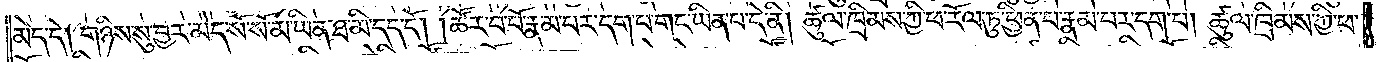མེད་དེ། གཉིས་སུ་བྱར་མེད་སོ་སོ་མ་ཡིན་ཐ་མི་དད་དོ། །ཚོར་བ་པོ་རྣམ་པར་དག་པ་གང་ཡིན་པ་དེ་ནི། ཚུལ་ཁྲིམས་ཀྱི་ཕ་རོལ་ཏུ་ཕྱིན་པ་རྣམ་པར་དག་པ། ཚུལ་ཁྲིམས་ཀྱི་ཕ་
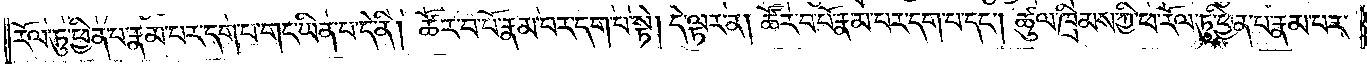རོལ་ཏུ་ཕྱིན་པ་རྣམ་པར་དག་པ་གང་ཡིན་པ་དེ་ནི། ཚོར་བ་པོ་རྣམ་པར་དག་པ་སྟེ། དེ་ལྟར་ན། ཚོར་བ་པོ་རྣམ་པར་དག་པ་དང༌། ཚུལ་ཁྲིམས་ཀྱི་ཕ་རོལ་ཏུ་ཕྱིན་པ་རྣམ་པར་
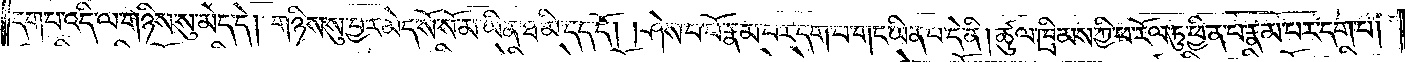དག་པ་འདི་ལ་གཉིས་སུ་མེད་དེ། གཉིས་སུ་བྱར་མེད་སོ་སོ་མ་ཡིན་ཐ་མི་དད་དོ། །ཤེས་པ་པོ་རྣམ་པར་དག་པ་གང་ཡིན་པ་དེ་ནི། ཚུལ་ཁྲིམས་ཀྱི་ཕ་རོལ་ཏུ་ཕྱིན་པ་རྣམ་པར་དག་པ།
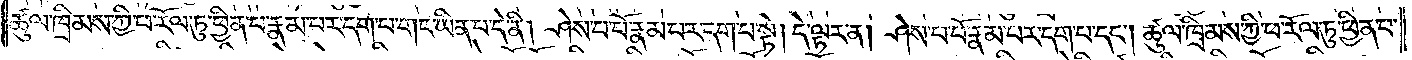ཚུལ་ཁྲིམས་ཀྱི་ཕ་རོལ་ཏུ་ཕྱིན་པ་རྣམ་པར་དག་པ་གང་ཡིན་པ་དེ་ནི། ཤེས་པ་པོ་རྣམ་པར་དག་པ་སྟེ། དེ་ལྟར་ན། ཤེས་པ་པོ་རྣམ་པར་དག་པ་དང༌། ཚུལ་ཁྲིམས་ཀྱི་ཕ་རོལ་ཏུ་ཕྱིན་པ་
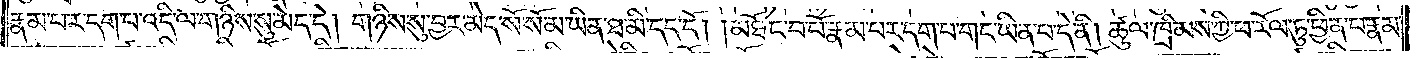རྣམ་པར་དག་པ་འདི་ལ་གཉིས་སུ་མེད་དེ། གཉིས་སུ་བྱར་མེད་སོ་སོ་མ་ཡིན་ཐ་མི་དད་དོ། །མཐོང་བ་བོ་རྣམ་པར་དག་པ་གང་ཡིན་པ་དེ་ནི། ཚུལ་ཁྲིམས་ཀྱི་ཕ་རོལ་ཏུ་ཕྱིན་པ་རྣམ་
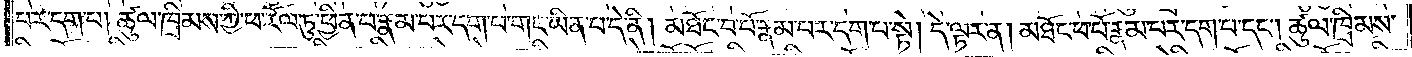པར་དག་པ། ཚུལ་ཁྲིམས་ཀྱི་ཕ་རོལ་ཏུ་ཕྱིན་པ་རྣམ་པར་དག་པ་གང་ཡིན་པ་དེ་ནི། མཐོང་བ་པོ་རྣམ་པར་དག་པ་སྟེ། དེ་ལྟར་ན། མཐོང་བ་པོ་རྣམ་པར་དག་པ་དང༌། ཚུལ་ཁྲིམས་
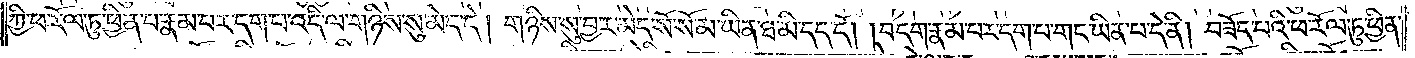ཀྱི་ཕ་རོལ་ཏུ་ཕྱིན་པ་རྣམ་པར་དག་པ་འདི་ལ་གཉིས་སུ་མེད་དེ། གཉིས་སུ་བྱར་མེད་སོ་སོ་མ་ཡིན་ཐ་མི་དད་དོ། །བདག་རྣམ་པར་དག་པ་གང་ཡིན་པ་དེ་ནི། བཟོད་པའི་ཕ་རོལ་ཏུ་ཕྱིན་
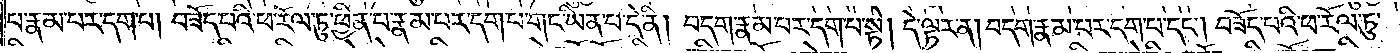པ་རྣམ་པར་དག་པ། བཟོད་པའི་ཕ་རོལ་ཏུ་ཕྱིན་པ་རྣམ་པར་དག་པ་གང་ཡིན་པ་དེ་ནི། བདག་རྣམ་པར་དག་པ་སྟེ། དེ་ལྟར་ན། བདག་རྣམ་པར་དག་པ་དང༌། བཟོད་པའི་ཕ་རོལ་ཏུ་
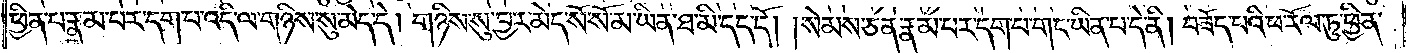ཕྱིན་པ་རྣམ་པར་དག་པ་འདི་ལ་གཉིས་སུ་མེད་དེ། གཉིས་སུ་བྱར་མེད་སོ་སོ་མ་ཡིན་ཐ་མི་དད་དོ། །སེམས་ཅན་རྣམ་པར་དག་པ་གང་ཡིན་པ་དེ་ནི། བཟོད་པའི་ཕ་རོལ་ཏུ་ཕྱིན་
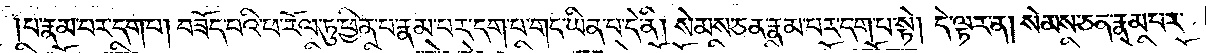པ་རྣམ་པར་དག་པ། བཟོད་པའི་ཕ་རོལ་ཏུ་ཕྱིན་པ་རྣམ་པར་དག་པ་གང་ཡིན་པ་དེ་ནི། སེམས་ཅན་རྣམ་པར་དག་པ་སྟེ། དེ་ལྟར་ན། སེམས་ཅན་རྣམ་པར་
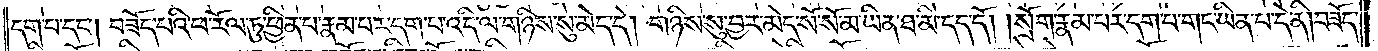དག་པ་དང༌། བཟོད་པའི་ཕ་རོལ་ཏུ་ཕྱིན་པ་རྣམ་པར་དག་པ་འདི་ལ་གཉིས་སུ་མེད་དེ། གཉིས་སུ་བྱར་མེད་སོ་སོ་མ་ཡིན་ཐ་མི་དད་དོ། །སྲོག་རྣམ་པར་དག་པ་གང་ཡིན་པ་དེ་ནི། བཟོད་
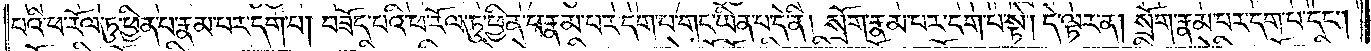པའི་ཕ་རོལ་ཏུ་ཕྱིན་པ་རྣམ་པར་དག་པ། བཟོད་པའི་ཕ་རོལ་ཏུ་ཕྱིན་པ་རྣམ་པར་དག་པ་གང་ཡིན་པ་དེ་ནི། སྲོག་རྣམ་པར་དག་པ་སྟེ། དེ་ལྟར་ན། སྲོག་རྣམ་པར་དག་པ་དང༌།
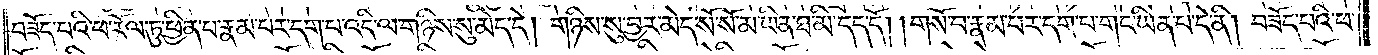བཟོད་པའི་ཕ་རོལ་ཏུ་ཕྱིན་པ་རྣམ་པར་དག་པ་འདི་ལ་གཉིས་སུ་མེད་དེ། གཉིས་སུ་བྱར་མེད་སོ་སོ་མ་ཡིན་ཐ་མི་དད་དོ། །གསོ་བ་རྣམ་པར་དག་པ་གང་ཡིན་པ་དེ་ནི། བཟོད་པའི་ཕ་
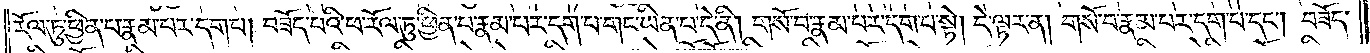རོལ་ཏུ་ཕྱིན་པ་རྣམ་པར་དག་པ། བཟོད་པའི་ཕ་རོལ་ཏུ་ཕྱིན་པ་རྣམ་པར་དག་པ་གང་ཡིན་པ་དེ་ནི། གསོ་བ་རྣམ་པར་དག་པ་སྟེ། དེ་ལྟར་ན། གསོ་བ་རྣམ་པར་དག་པ་དང༌། བཟོད་
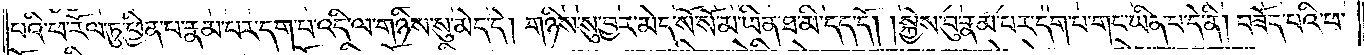པའི་ཕ་རོལ་ཏུ་ཕྱིན་པ་རྣམ་པར་དག་པ་འདི་ལ་གཉིས་སུ་མེད་དེ། གཉིས་སུ་བྱར་མེད་སོ་སོ་མ་ཡིན་ཐ་མི་དད་དོ། །སྐྱེས་བུ་རྣམ་པར་དག་པ་གང་ཡིན་པ་དེ་ནི། བཟོད་པའི་ཕ་
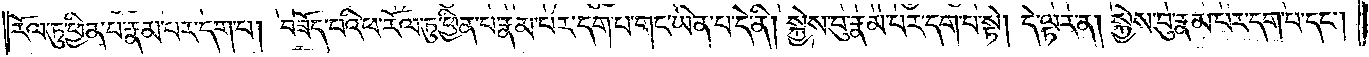རོལ་ཏུ་ཕྱིན་པ་རྣམ་པར་དག་པ། བཟོད་པའི་ཕ་རོལ་ཏུ་ཕྱིན་པ་རྣམ་པར་དག་པ་གང་ཡིན་པ་དེ་ནི། སྐྱེས་བུ་རྣམ་པར་དག་པ་སྟེ། དེ་ལྟར་ན། སྐྱེས་བུ་རྣམ་པར་དག་པ་དང༌།
